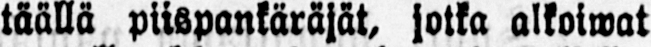täällä piispankäräjät, jotka alkoiwat
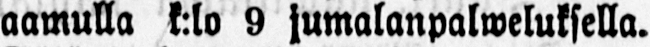aamulla k:lo 9 jumalanpalweluksella.
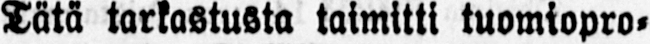Tätä tarkastusta taimitti tuomiopro-
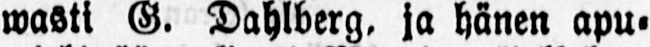wasti G. Dahlberg, ja hänen apu-
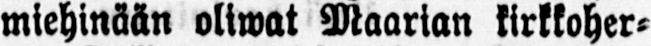miehinään oliwat Maarian kirkkoher-
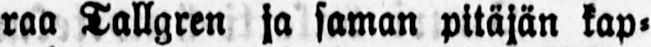raa Tallgren ja saman pitäjän kap-
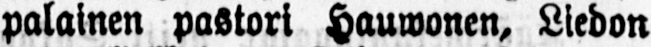palainen pastori Hauwonen, Liedon
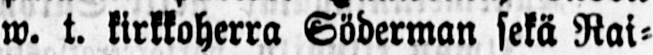w. t. kirkkoherra Söderman sekä Rai-
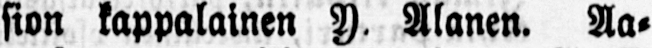sion kappalainen Y. Alanen. Aa-
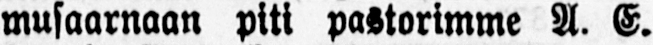musaarnaan piti pastorimme A. E.
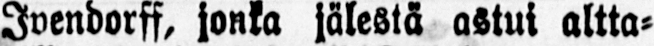Ivendorff, jonka jälestä astui altta-
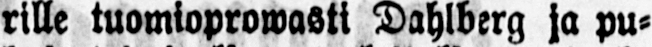rille tuomioprowasti Dahlberg ja pu-
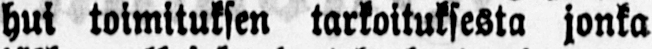hui toimituksen tarkoituksesta jonka
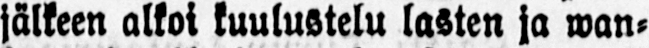jälkeen alkoi kuulustelu lasten ja wan-
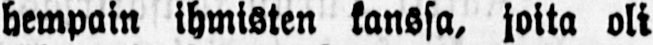hempain ihmisten kanssa, joita oli
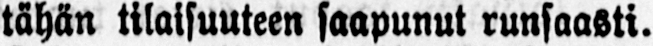tähän tilaisuuteen saapunut runsaasti.
